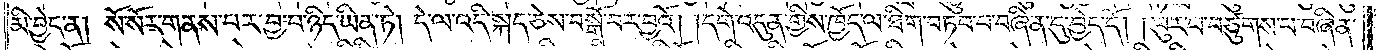མི་བྱེད་ན། སོ་སོར་གནས་པར་བྱ་བ་ཉིད་ཡིན་ཏེ། དེ་ལ་འདི་སྐད་ཅེས་བསྒོ་བར་བྱའོ། །དགེ་འདུན་གྱིས་ཁྱོད་ལ་ཐིག་བཏབ་པ་བཞིན་དུ་བྱེད་དོ། །ཕུར་པ་བཙུགས་པ་བཞིན་
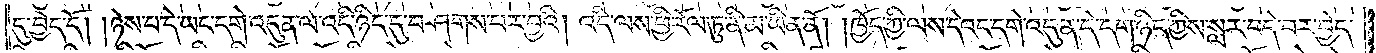དུ་བྱེད་དོ། །ཉེས་པ་དེ་ཡང་དགེ་འདུན་ལ་འདི་ཉིད་དུ་བཤགས་པར་བྱའི། འདི་ལས་ཕྱི་རོལ་ཏུ་ནི་མ་ཡིན་ནོ། །ཁྱོད་ཀྱི་ལས་དེའང་དགེ་འདུན་དེ་དག་ཉིད་ཀྱིས་སླར་བདེ་བར་བྱེད་
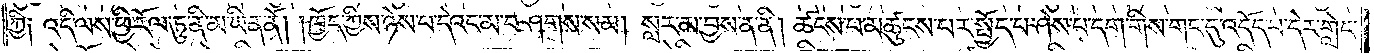ཀྱི༑ འདི་ལས་ཕྱི་རོལ་ཏུ་ནི་མ་ཡིན་ནོ། །ཁྱོད་ཀྱིས་ཉེས་པ་དེའང་མ་བཤགས་སམ། སླར་མ་བྱས་ན་ནི། ཚངས་པ་མཚུངས་པར་སྤྱོད་པ་ཤེས་པ་དག་གིས་གང་དུ་འདོད་པ་དེར་གླེང་
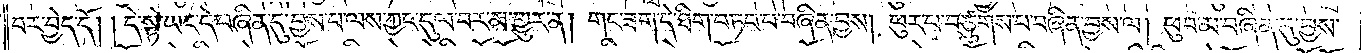བར་བྱེད་དོ། །དེ་སྟེ་ཡང་དེ་བཞིན་དུ་བྱས་པ་ལས་ཀྱང་དུལ་བར་མ་གྱུར་ན། གང་ཟག་དེ་ཐིག་བཏབ་པ་བཞིན་བྱས། ཕུར་བ་བཙུགས་པ་བཞིན་བྱས་ལ། ཕུབ་མ་བཞིན་དུ་བྱས་
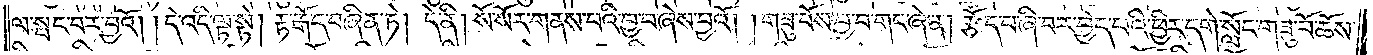ལ་སྤང་པར་བྱའོ། །དེ་འདི་ལྟ་སྟེ། རྟ་རྒོད་བཞིན་ཏེ། དེ་ནི། སོ་སོར་གནས་པའི་བྱ་བ་ཞེས་བྱའོ། །གཟུ་བོས་བྱ་བ་གང་ཞེ་ན། རྩོད་པ་ཞི་བར་བྱེད་པའི་ཕྱིར་དགེ་སློང་གཟུ་བོ་ཆོས་
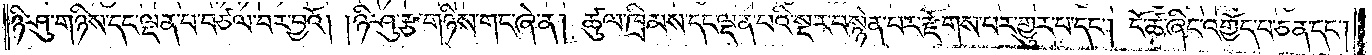ཉི་ཤུ་གཉིས་དང་ལྡན་པ་བཙལ་བར་བྱའོ། །ཉི་ཤུ་རྩ་གཉིས་གང་ཞེ་ན། ཚུལ་ཁྲིམས་དང་ལྡན་པའི་སྔར་བ་ཉེན་པར་རྫོགས་པར་གྱུར་པ་དང༌། ངོ་ཚ་ཞིང་འགྱོད་པ་ཅན་དང༌།
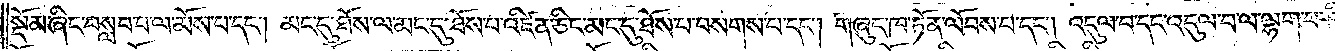སྡོམ་ཞིང་བསླབ་པ་ལ་མོས་པ་དང༌། མང་དུ་ཐོས་ལ་མང་དུ་ཐོས་པ་འཛིན་ཅིང་མང་དུ་ཐོས་པ་བསགས་པ་དང༌། གཞུང་ཁ་ཏོན་ལོབས་པ་དང༌། འདུལ་བ་དང་འདུལ་བ་ལ་ལྷག་པ་
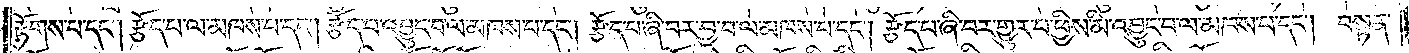རྟོགས་པ་དང༌། རྩོད་པ་ལ་མཁས་པ་དང༌། རྩོད་པ་འབྱུང་བ་ལ་མཁས་པ་དང༌། རྩོད་པ་ཞི་བར་བྱ་བ་ལ་མཁས་པ་དང༌། རྩོད་པ་ཞི་བར་གྱུར་པ་ཕྱིས་མི་འབྱུང་བ་ལ་མཁས་པ་དང༌། བསྟན་
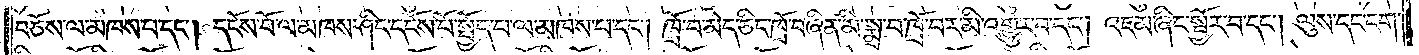བཅོས་ལ་མཁས་པ་དང༌། དངོས་པོ་ལ་མཁས་ཤིང་དངོས་པོ་སྤྱོད་པ་ལ་མཁས་པ་དང༌། ཁྲོ་བ་མེད་ཅིང་ཁྲོ་བཞིན་མི་སྨྲ་བ་ཁྲོ་བར་མི་འགྱུར་བ་དང༌། འཇམ་ཞིང་སྦྱོར་བ་དང༌། ལུས་དང་ངག་
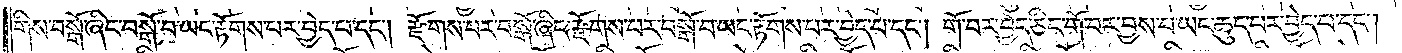གིས་བསྒོ་ཞིང་བསྒོ་བ་ཡང་རྟོགས་པར་བྱེད་པ་དང༌། རྫོགས་པར་བསྒོ་ཞིང་རྫོགས་པར་བསྒོ་བ་ཡང་རྟོགས་པར་བྱེད་པ་དང༌། གོ་བར་བྱེད་ཅིང་གོ་བར་བྱས་པ་ཡང་ཆུད་པར་བྱེད་པ་དང༌།
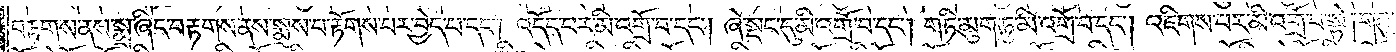བརྟགས་ནས་སྨྲ་ཞིང་བརྟགས་ནས་སྨྲས་པ་རྟོགས་པར་བྱེད་པ་དང༌། འདོད་པར་མི་འགྲོ་བ་དང༌། ཞེ་སྡང་དུ་མི་འགྲོ་བ་དང༌། གཏི་མུག་ཏུ་མི་འགྲོ་བ་དང༌། འཇིགས་པར་མི་འགྲོ་བ་སྟེ། གཟུ་
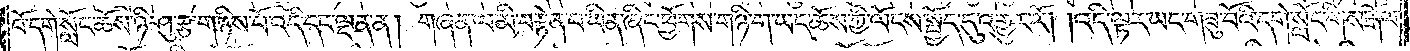བོ་དགེ་སློང་ཆོས་ཉི་ཤུ་རྩ་གཉིས་པོ་འདི་དང་ལྡན་ན། གཞན་ལ་མི་བརྟེན་པ་ཡིན་ཞིང་ཕྱོགས་གཉི་ག་ཡང་ཆོས་ཀྱི་ལོངས་སྤྱོད་དུ་འགྱུར་རོ། །འདི་ལྟར་ཡང་གཟུ་པོའི་དགེ་སློང་གིས་རྒོལ་
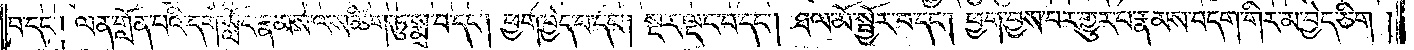པ་དང༌། ལན་གློན་པའི་དགེ་སློང་རྣམས་ལས་ཚིག་ཏུ་སྨྲ་བ་དང༌། ཕྱག་བྱེད་པ་དང༌། སྔར་ལྡང་བ་དང༌། ཐལ་མོ་སྦྱོར་བ་དང༌། ཕྱག་བྱས་པར་གྱུར་པ་རྣམས་བདག་གིར་མ་བྱེད་ཅིག།
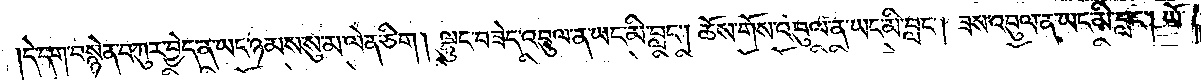དེ་དག་བསྙེན་བཀུར་བྱེད་ན་ཡང་ཉམས་སུ་མ་ལེན་ཅིག །ལྷུང་བཟེད་འབུལ་ན་ཡང་མི་བླང༌། ཆོས་གོས་འབུལ་ན་ཡང་མི་བླང༌། ཟས་འབུལ་ན་ཡང་མི་བླང༌། ཡོ་
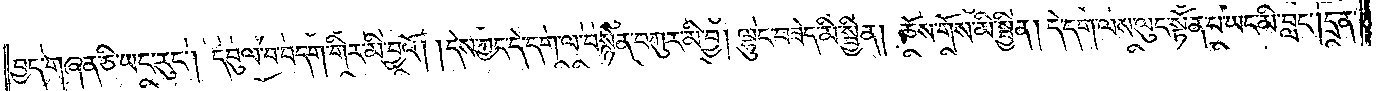བྱད་གཞན་ཅི་ཡང་རུང༌། དབུལ་བ་བདག་གིར་མི་བྱའོ། །དེས་ཀྱང་དེ་དག་ལ་བསྙེན་བཀུར་མི་བྱ། ལྷུང་བཟེད་མི་སྦྱིན། ཆོས་གོས་མི་སྦྱིན། དེ་དག་ལས་ལུང་སྟོན་པ་ཡང་མི་བླང༌། དྲན་
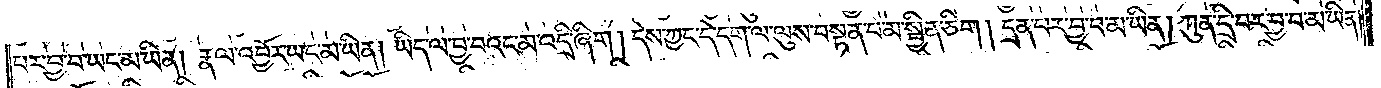པར་བྱ་བ་ཡང་མ་ཡིན། རྣལ་འབྱོར་ཡང་མ་ཡིན། ཡིད་ལ་བྱ་བའང་མ་འདྲི་ཞིག །དེས་ཀྱང་དེ་དག་ལ་ལུས་བསྟན་པ་མ་སྦྱིན་ཅིག །དྲན་པར་བྱ་བ་མ་ཡིན། ཀུན་དྲི་བར་བྱ་བ་མ་ཡིན།
